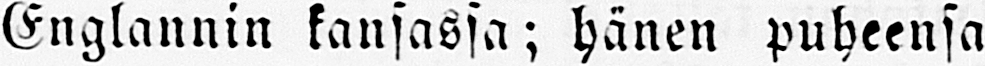Englannin kansassa; hänen puheensa
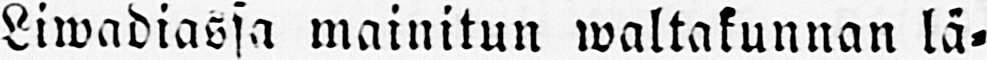Liwadiassa mainitun waltakunnan lä-
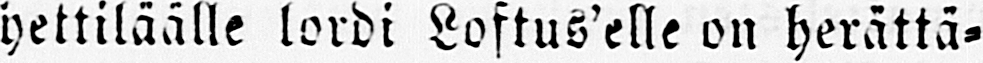hettiläälle lordi Loftus’elle on herättä-
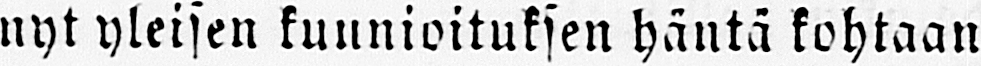nyt yleisen kunnioituksen häntä kohtaan
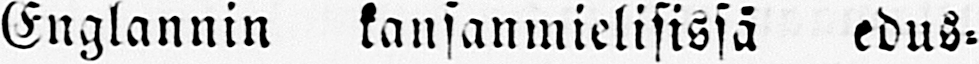Englannin kansanmielisissä edus-
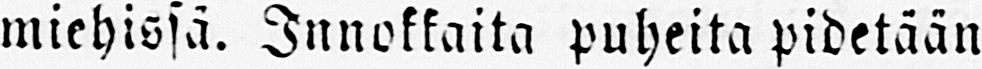miehissä. Innokkaita puheita pidetään
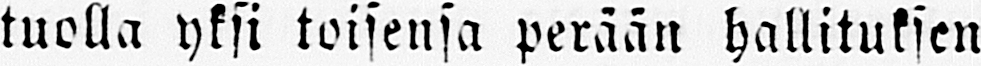tuolla yksi toisensa perään hallituksen
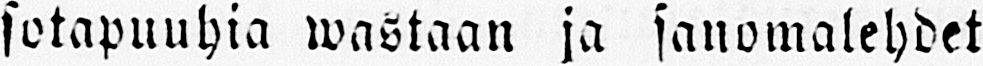sotapuuhia wastaan ja sanomalehdet
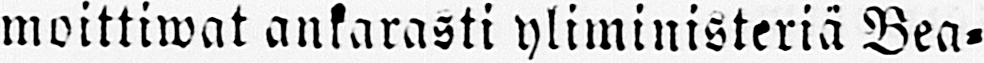moittiwat ankarasti yliministeriä Bea-
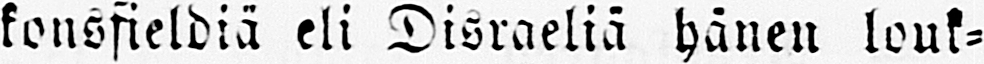konsfieldiä eli Disraeliä hänen louk-
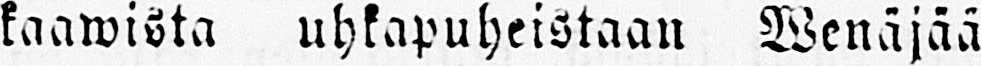kaawista uhkapuheistaan Wenäjää
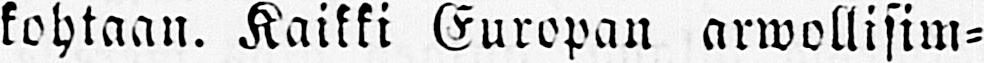kohtaan. Kaikki Europan arwollisim-
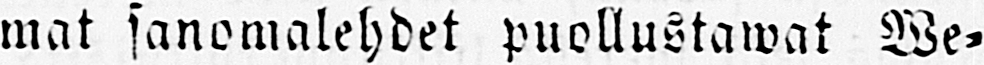mat sanomalehdet puollustawat We-
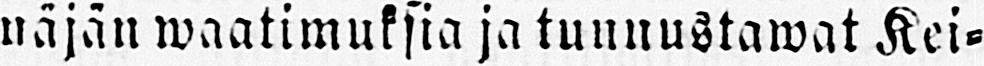näjän waatimuksia ja tunnustawat Kei-
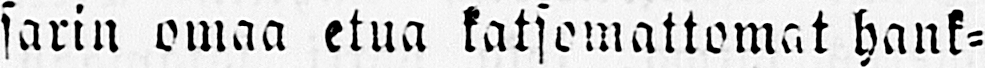sarin omaa etua katsomattomat hank-
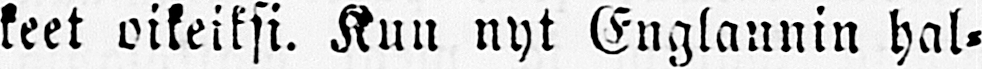keet oikeiksi. Kun nyt Englannin hal-
